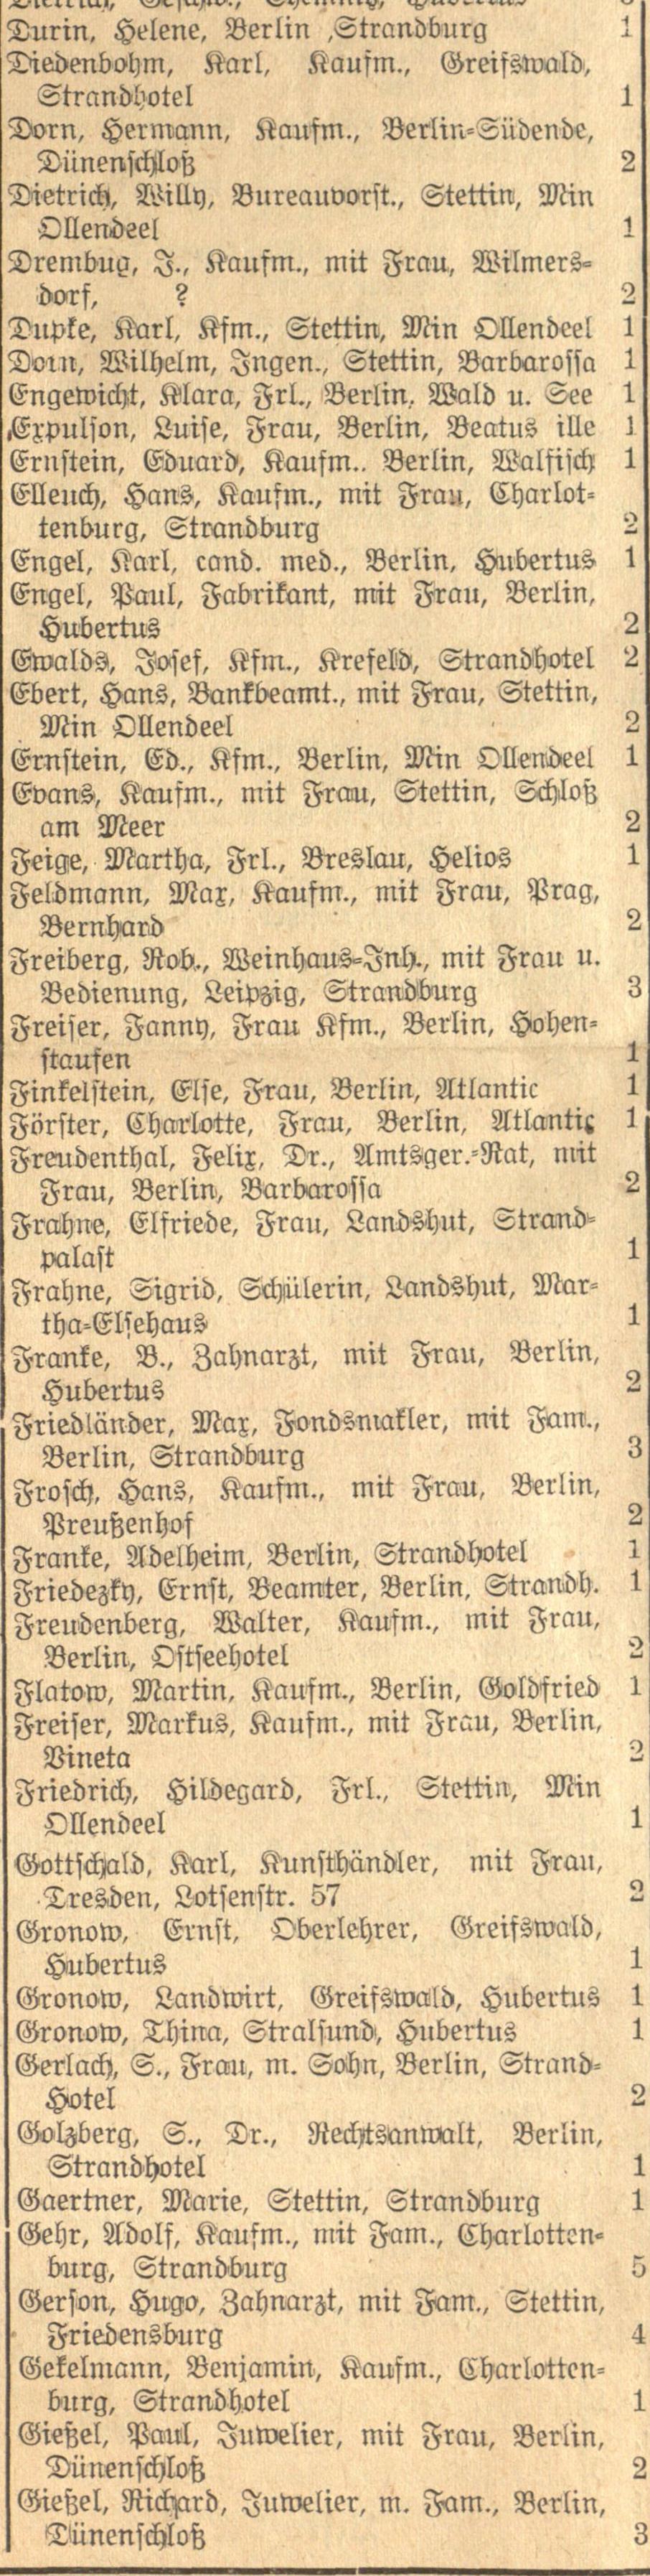Durin, Helene, Berlin, Strandburg | 1
Diedenbohm, Karl, Kaufm., Greifswald,
Strandhotel | 1
Dorn, Hermann, Kaufm., Berlin=Südende,
Dünenschloß | 2
Dietrich, Willy, Bureauvorst., Stettin, Min
Ollendeel | 1
Drembug, I., Kaufm., mit Frau, Wilmers=
dorf, ? | 2
Dupke, Karl, Kfm., Stettin, Min Ollendeel | 1
Dorn, Wilhelm, Ingen., Stettin, Barbarossa | 1
Engewicht, Klara, Frl., Berlin, Wald u. See | 1
Expulson, Luise, Frau, Berlin, Beatus ille | 1
Ernstein, Eduard, Kaufm., Berlin, Walfisch | 1
Elleuch, Hans, Kaufm., mit Frau, Charlot=
tenburg, Strandburg | 2
Engel, Karl, cand. med., Berlin, Hubertus | 1
Engel, Paul, Fabrikant, mit Frau, Berlin,
Hubertus | 2
Ewalds, Josef, Kfm., Krefeld, Strandhotel | 2
Ebert, Hans, Bankbeamt., mit Frau, Stettin,
Min Ollendeel | 2
Ernstein, Ed., Kfm., Berlin, Min Ollendeel | 1
Evans, Kaufm., mit Frau, Stettin, Schloß
am Meer | 2
Feige, Martha, Frl., Breslau, Helios | 1
Feldmann, Max, Kaufm., mit Frau, Prag,
Bernhard | 2
Freiberg, Rob., Weinhaus=Inh., mit Frau u.
Bedienung, Leipzig, Strandburg | 3
Freiser, Fanny, Frau Kfm., Berlin, Hohen=
staufen | 1
Finkelstein, Else, Frau, Berlin, Atlantic | 1
Förster, Charlotte, Frau, Berlin, Atlantic | 1
Freudenthal, Felix, Dr., Amtsger.=Rat, mit
Frau, Berlin, Barbarossa | 2
Frahne, Elfriede, Frau, Landshut, Strand=
palast | 1
Frahne, Sigrid, Schülerin, Landshut, Mar=
tha=Elsehaus | 1
Franke, B., Zahnarzt, mit Frau, Berlin,
Hubertus | 2
Friedländer, Max, Fondsmakler, mit Fam.,
Berlin, Strandburg | 3
Frosch, Hans, Kaufm., mit Frau, Berlin,
Preußenhof | 2
Franke, Adelheim, Berlin, Strandhotel | 1
Friedezky, Ernst, Beamter, Berlin, Strandh. | 1
Freudenberg, Walter, Kaufm., mit Frau,
Berlin, Ostseehotel | 2
Flatow, Martin, Kaufm., Berlin, Goldfried | 1
Freiser, Markus, Kaufm., mit Frau, Berlin,
Vineta | 2
Friedrich, Hildegard, Frl., Stettin, Min
Ollendeel | 1
Gottschald, Karl, Kunsthändler, mit Frau,
Dresden, Lotsenstr. 57 | 2
Gronow, Ernst, Oberlehrer, Greifswald,
Hubertus | 1
Gronow, Landwirt, Greifswald, Hubertus | 1
Gronow, Thina, Stralsund, Hubertus | 1
Gerlach, S., Frau, m. Sohn, Berlin, Strand=
Hotel | 2
Golzberg, S., Dr., Rechtsanwalt, Berlin,
Strandhotel | 1
Gaertner, Marie, Stettin, Strandburg | 1
Gehr, Adolf, Kaufm., mit Fam., Charlotten=
burg, Strandburg | 5
Gerson, Hugo, Zahnarzt, mit Fam., Stettin,
Friedensburg | 4
Gekelmann, Benjamin, Kaufm., Charlotten=
burg, Strandhotel | 1
Gießel, Paul, Juwelier, mit Frau, Berlin,
Dünenschloß | 2
Gießel, Richard, Juwelier, m. Fam., Berlin,
Dünenschloß | 3
